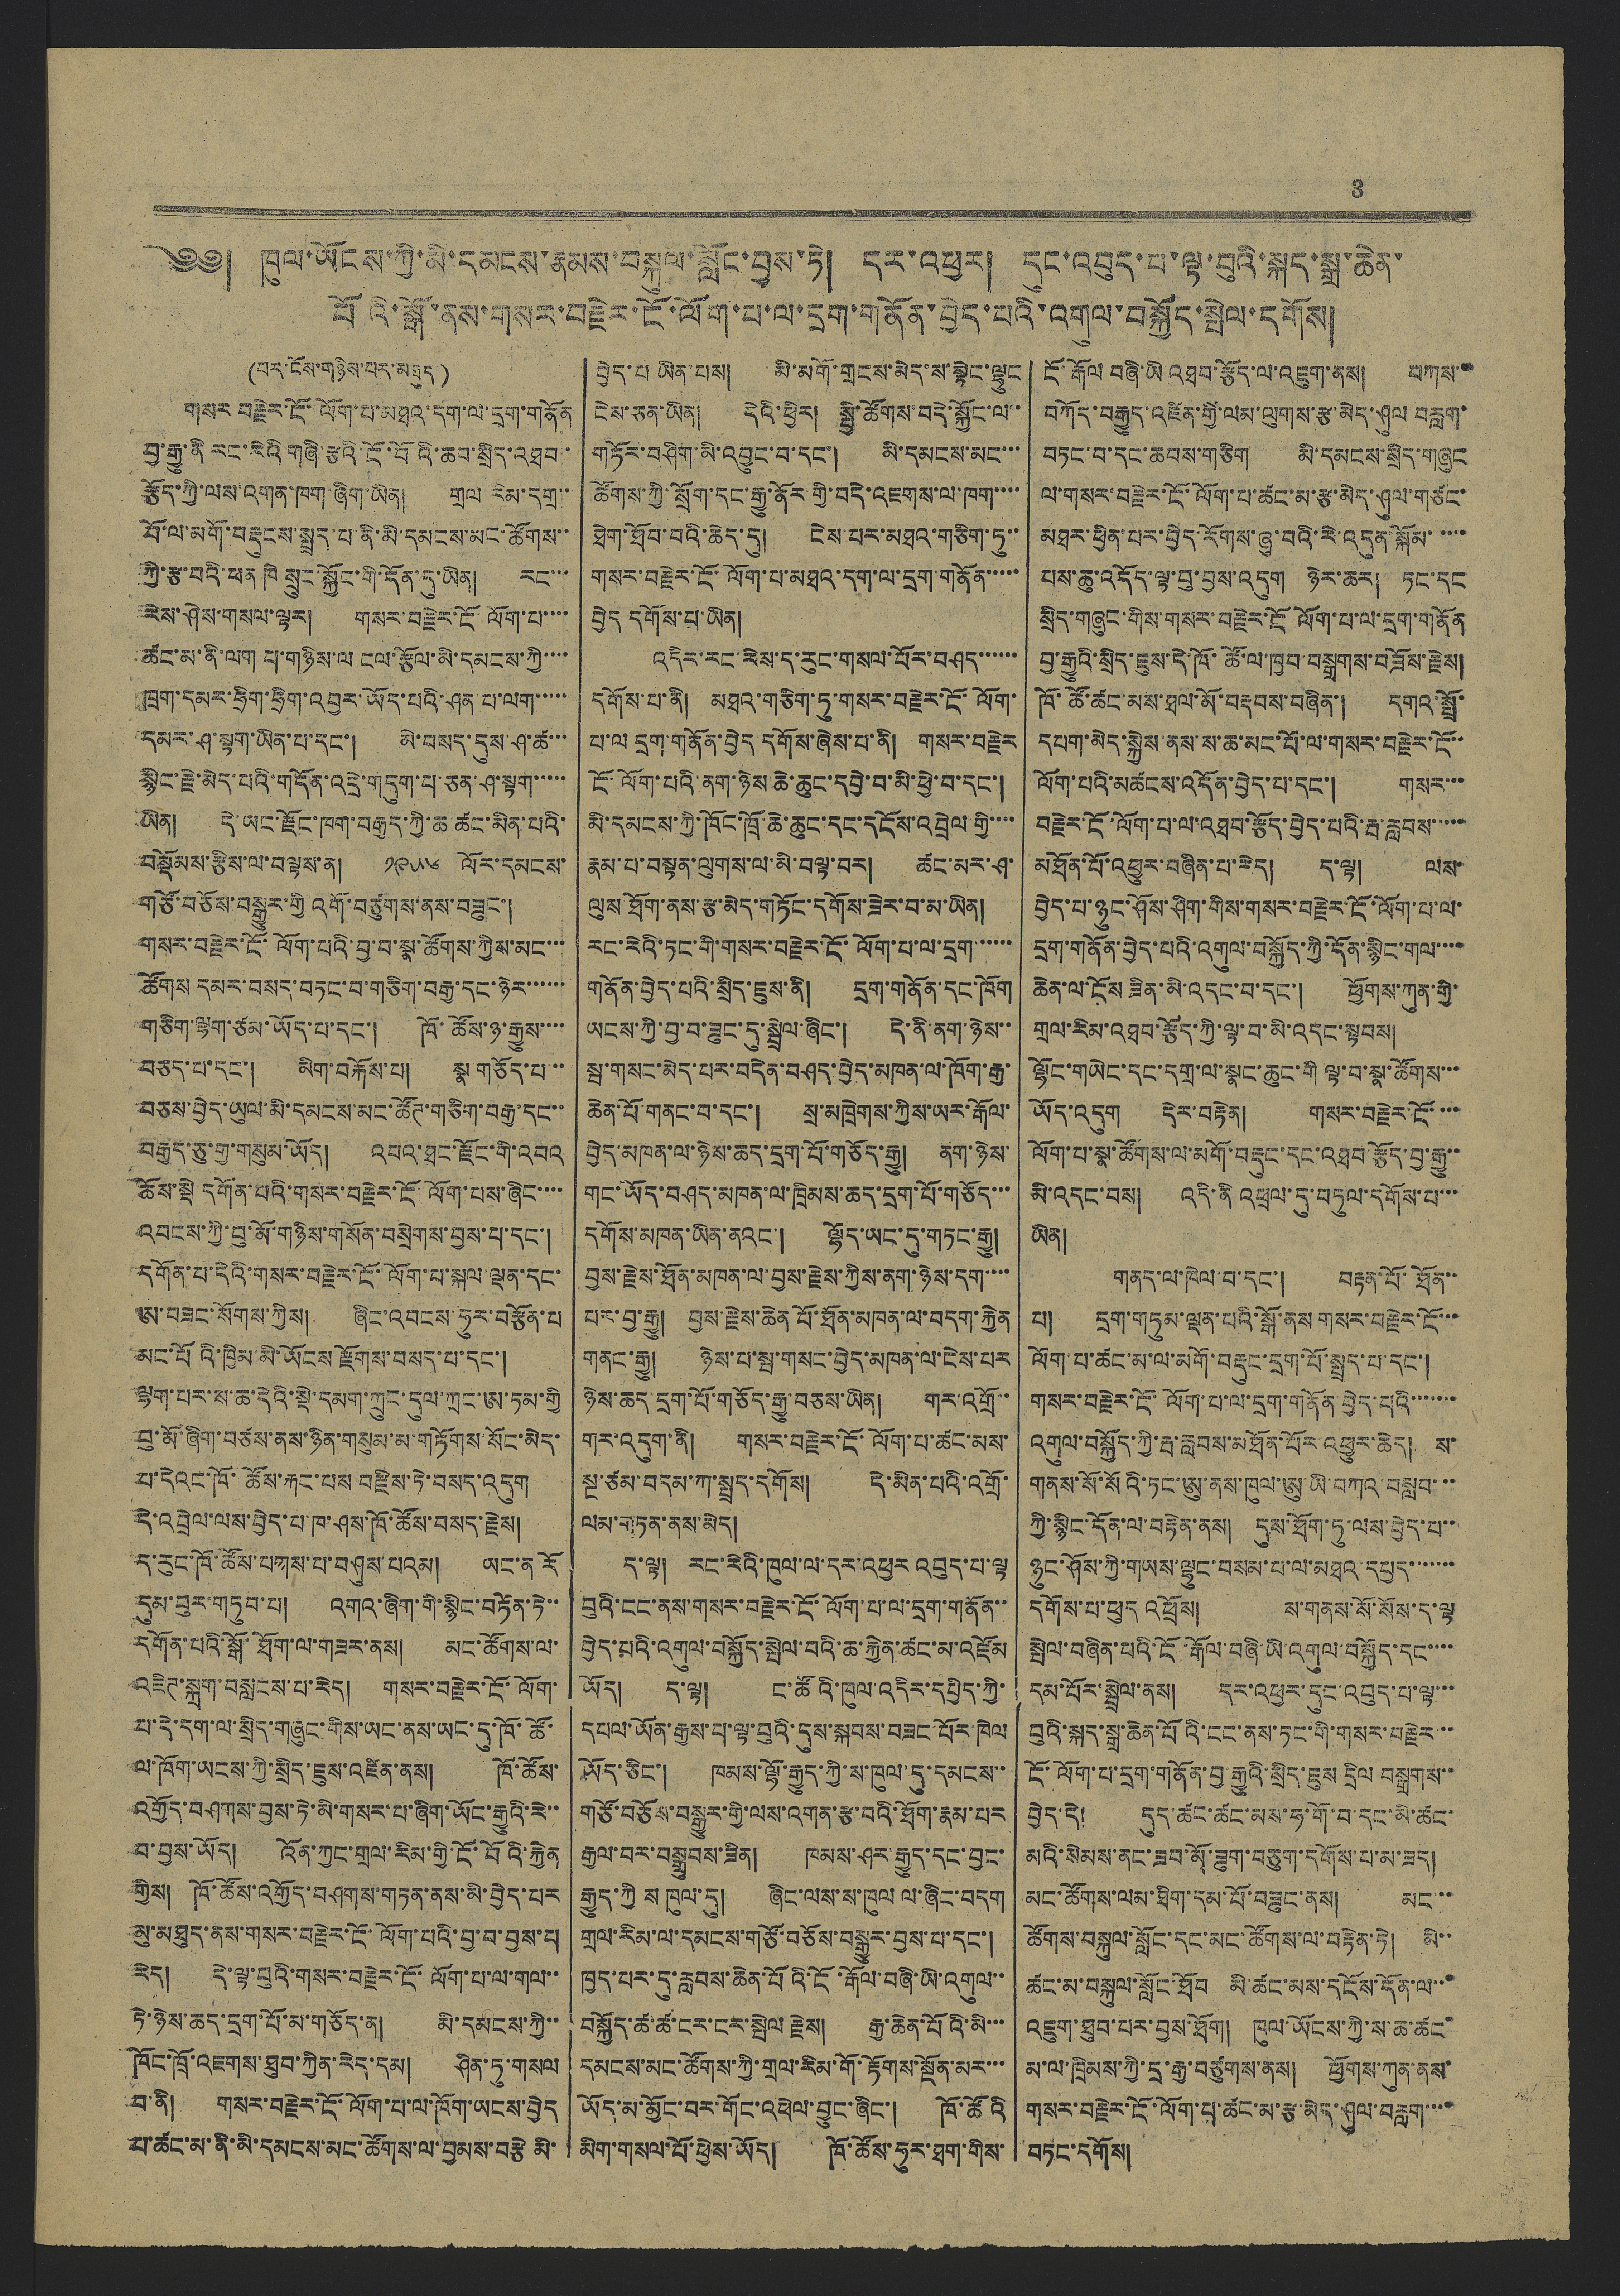3
༄༅། ཁུལ་ཡོངས་ཀྱི་མི་དམངས་རྣམས་བསྐུལ་སློང་བྱས་ཏེ། དར་འཕྱར། དུང་འབུད་པ་ལྟ་བུའི་སྐད་སྒྲ་ཆེན་
པོའི་སྒོ་ནས་གསར་བརྗེར་ངོ་ལོག་པ་ལ་དྲག་གནོན་བྱེད་པའི་འགུལ་བསྐྱོད་སྤེལ་དགོས།
(པར་ངོས་གཉིས་པར་མཐུད།)
གསར བརྗེར་ངོ་ལོག་པ་མཐའ་དག་ལ་དྲག་གནོན
བྱ་རྒྱུ་ནི རང་རེའི གཞི་རྩའི་ངོ་བོའི་ཆབ་སྲིད་འཐབ་
རྩོད་ཀྱི་ལས་འགན་ཁག་ཞིག་ཡིན། གྲལ རིམ་དགྲ་་
བོ་ལ་མགོ་བརྡུངས་སྤྲད་པ་ནི་མི་དམངས་མང་ཚོགས་་
ཀྱི་རྩ་བའི་ཕན ཁེ སྲུང་སྐྱོང་གི་དོན་དུ་ཡིན། རང་་་
རེས་ཤེས་གསལ་ལྟར། གསར་བརྗེར་ངོ་ལོག་པ་་་་
ཚང་མ་ནི་ལག པ་གཉིས་ལ ངལ་རྩོལ་མི་དམངས་ཀྱི་་་་
ཁྲག་དམར་ཧྲིག་ཧྲིག་འབྱར་ཡོད་པའི་ཤན་པ་ལག་་་་་
དམར་ཤ་སྟག་ཡིན་པ་དང་། མི་བསད་དུས་ཤ་ཚ་་་
སྙིང་རྗེ་མེད་པའི་གདོན་འདྲེ་གདུག་པ་ཅན་ཤ་སྟག་་་་་
ཡིན། དེ་ཡང་རྫོང་ཁག་བརྒྱད་ཀྱི་ཆ་ཚང་མིན་པའི་
བསྡོམས་རྩིས་ལ་བལྟས་ན། ༡༩༥༦ ལོར་དམངས་
གཙོ་བཅོས་བསྒྱུར་གྱི འགོ་བཙུགས་ནས་བཟུང་།
གསར་བརྗེར་ངོ་ལོག་པའི་བྱ་བ་སྣ་ཚོགས་ཀྱིས་མང་་་
ཚོགས དམར་བསད་བཏང་བ་གཅིག་བརྒྱ་དང་ཉེར་་་་་་
གཅིག་ལྷག་ཙམ་ཡོད་པ་དང་། ཁོ་ཚོས་ཉ་རྒྱུས་་་་
བཅད་པ་དང་། མིག་བསྐོས་པ། སྣ གཅོད་པ་་་
བཅས་བྱེད་ཡུལ་མི་དམངས་མང་ཚོཊ་གཅིག་བརྒྱ་དང་་
བརྒྱད་ཅུ་གྱ་གསུམ་ཡོད། འབའ་ཐང་རྫོང་གི་འབའ
ཆོས་སྡེ དགོན་པའི་གསར་བརྗེར་ངོ་ལོག་པས་ཞིང་་་་
འབངས་ཀྱི་བུ་མོ་གཉིས་གསོན་བསྲེགས་བྱས་པ་དང་།
དགོན་པ་དེའི་གསར་བརྗེར་ངོ་ལོག་པ་སྐལ་ལྡན་དང་
ཨ་བཟང་སོགས་ཀྱིས། ཞིག་འབངས་ཧུར་བརྩོན་པ
མང་པོའི་ཁྱིམ་མི་ཡོངས་རྫོགས་བསད་པ་དང་།
ལྷག་པར་ས་ཆ་དེའི་སྡེ་དམག་ཀྲུང་དུལ་ཀྲང་ཨ་ཏམ་གྱི
བུ་མོ་ཞིག་བཙས་ནས་ཉིན་གསུམ་མ་གཏོགས་སོང་མེད་
པ་དེའང་ཁོ་ཚོས་རྐང་པས་བརྫིས་ཏེ་བསད་འདུག
དེ་འབྲེལ་ལས་བྱེད་པ་ཁ་ཤས་ཁོ་ཚོས་བསད་རྗེས།
ད་རུང་ཁོ་ཚོས་པགས་པ་བཤུས་པའམ། ཡང་ན་རོ
དུམ་བུར་གཏུབ་པ། འགའ་ཞིག་གི་སྙིང་བཏོན་ཏེ་་
དགོན་པའི་སྒོ་ཐོག་ལ་གཟར་ནས། མང་ཚོགས་ལ་
འཇིཊ་སྐྲག་བསླངས་པ་རེད། གསར་བརྗེར་ངོ་ལོག་
པ་དེ་དག་ལ་སྲིད་གཞུང་གིས་ཡང་ནས་ཡང་དུ་ཁོ་ཚོ་
ལ་ཁོག་ཡངས་ཀྱི་སྲིད་ཇུས་འཛིན་ནས། ཁོ་ཚོས་
འགྱོད་བཤགས་བྱས་ཏེ་མི་གསར་པ་ཞིག་ཡོང་རྒྱུའི་རེ་་
བ་བྱས་ཡོད། འོན་ཀྱང་གྲལ་རིམ་གྱི་ངོ་བོའི་རྐྱེན
གྱིས། ཁོ་ཚོས་འགྱོད་བཤགས་གཏན་ནས་མི་བྱེད་པར
མུ་མཐུད་ནས་གསར་བརྗེར་ངོ་ལོག་པའི་བྱས་བ་བྱས་པ
རེད། དེ་ལྟ་བུའི་གསར་བརྗེར་ངོ་ལོག་པ་ལ་གལ་་
ཏེ་ཉེས་ཆད་དྲག་པོ་མ་གཅོད་ན། མི་དམངས་ཀྱི་་
ཁོང་ཁྲོ་འཇགས་ཐུབ་ཀྱིན་རེད་དམ། ཤིན་ཏུ་གསལ
བ་ནི། གསར་བརྗེར་ངོ་ལོག་པ་ལ་ཁོག་ཡངས་བྱེད
པ་ཚང་མ་ནི་མི་དམངས་མང་ཚོགས་ལ་བྱམས་བརྩེ་མི་
བྱེད་པ་ཡིན་པས། མི་མགོ་གྲངས་མེད་ས་སྟེང་ལྷུང
ངེས་ཅན་ཡིན། དེའི་ཕྱིར། སྤྱི་ཚོགས་བདེ་སྐྱོང་ལ་་
གཏོར་བཤིག་མི་འབྱུང་བ་དང་། མི་དམངས་མང་་་
ཚོགས་ཀྱི་སྲོག་དང་རྒྱུ་ནོར་གྱི་བདེ་འཇགས་ལ་ཁག་་་་
ཐེག་ཐོབ་བའི་ཆེད་དུ། ངེས་པར་མཐའ་གཅིག་ཏུ་་
གསར་བརྗེར་ངོ་ལོག་པ་མཐའ་དག་ལ་དྲག་གནོན་་་་་
བྱེད་དགོས་པ་ཡིན།
འདིར་རང་རེས་ད་རུང་གསལ་པོར་བཤད་་་་་་
དགོས་པ་ནི། མཐའ་གཅིག་ཏུ་གསར་བརྗེར་ངོ་ལོག་
པ་ལ དྲག་གནོན་བྱེད དགོས་ཞེས་པ་ནི། གསར་བརྗེར
ངོ་ལོག་པའི་ནག་ཉེས་ཆེ་ཆུང་དབྱེ་བ་མི་ཕྱེ་བ་དང་།
མི་དམངས་ཀྱི་ཁོང་ཁྲོ་ཆེ་ཆུང་དང་དངོས་འབྲེལ་གྱི་་་་
རྣམ་པ་བསྟན་ལུགས་ལ་མི་བལྟ་བར། ཚང་མར་ཤ་
ལུས ཐོག་ནས་རྩ་མེད་གཏོང་དགོས་ཟེར་བ་མ་ཡིན།
རང་རེའི་ཏང་གི་གསར་བརྗེར་ངོ་ལོག་པ་ལ་དྲག་་་་་་
གནོན་བྱེད་པའི་སྲིད་ཇུས་ནི། དྲག་གནོན་དང་ཁོག
ཡངས་ཀྱི་བྱ་བ་ཟུང་དུ་སྦྲེལ་ཞིང་། དེ་ནི་ནག་ཉེས་་
སྦ་གསང་མེད་པར་བདེན་བཤད་བྱེད་མཁན་ལ་ཁོག་རྒྱ་
ཆེན་པོ་གནང་བ་དང་། སྲ་མཁྲེགས་ཀྱིས་ཡར་རྒོལ་
བྱེད་མཁན་ལ་ཉེས་ཆད་དྲག་པོ་གཅོད་རྒྱུ། ནག་ཉེས་
གང་ཡོད་བཤད་མཁན་ལ་ཁྲིམས་ཆད་དྲག་པོ་གཅོད་་་
དགོས་མཁན་ཡིན་ནའང་། ལྷོད་ཡང་དུ་གཏང་རྒྱུ།
བྱས་རྗེས་ཐོན་མཁན་ལ་བྱས་རྗེས་ཀྱིས་ནག་ཉེས་དག་་་་
པར་བྱ་རྒྱུ། བྱས་རྗེས་ཆེན་པོ་ཐོན་མཁན་ལ་བདག་རྐྱེན
གནང་རྒྱུ། ཉེས་པ་སྦ་གསང་བྱེད་མཁན་ལ་ངེས་པར
ཉེས་ཆད་དྲག་པོ་གཅོད་རྒྱུ་བཅས་ཡིན། གར་འགྲོ་་
གར་འདུག་ནི། གསར་བརྗེར་ངོ་ལོག་པ་ཚང་མས་
སྔ་ཙམ་བདམ་ཀ་སྤྲད་དགོས། དེ་མིན་པའི་འགྲོ་
ལམ་གཏན་ནས་མེད།
ད་ལྟ། རང་རེའི་ཁུལ་ལ་དར་འཕྱར་འབུད་པ་ལྟ
བུའི་ངང་ནས་གསར་བརྗེར་ངོ་ལོག་པ་ལ་དྲག་གནོན་་
བྱེད་པའི་འགུལ་བསྐྱོད་སྤེལ་བའི་ཆ་རྐྱེན་ཚང་མ་འཛོམ
ཡོད། ད་ལྟ། ང་ཚོའི་ཁུལ་འདིར་དཔྱིད་ཀྱི་
དཔལ་ཡོན་རྒྱས་པ་ལྟ་བུའི་དུས་སྐབས་བཟང་པོར་ཁེལ
ཡོད་ཅིང་། ཁམས་ལྷོ་རྒྱུད་ཀྱི་ས་ཁུལ་དུ་དམངས་་
གཙོ་བཅོས་བསྒྱུར་གྱི་ལས་འགན་རྩ་བའི་ཐོག་རྣམ་པར
རྒྱལ་བར་བསྒྲུབས་ཟིན། ཁམས་ཤར་རྒྱུད་དང་བྱང་
རྒྱུད་ཀྱི ས ཁུལ་དུ། ཞིང་ལས་ས་ཁུལ་ལ་ཞིང་བདག
གྲལ་རིམ་ལ་དམངས་གཙོ་བཅོས་བསྒྱུར་བྱས་པ་དང་།
ཁྱད་པར་དུ་རླབས་ཆེན་པོའི་ངོ་རྒོལ་བཞི་ཡི་འགུལ་་
བསྐྱོད་ཚ་ཚ་ངར་ངར་སྤེལ རྗེས། རྒྱ་ཆེན་པོའི་མི་་་
དམངས་མང་ཚོགས་ཀྱི་གྲལ་རིམ་གོ་རྟོགས་སྔོན་མར་་་
ཡོད་མ་མྱོང་བར་གོང་འཕེལ་བྱུང་ཞིང་། ཁོ་ཚོའི
མིག་གསལ་པོ་ཕྱེས་ཡོད། ཁོ་ཚོས་ཧུར་ཐག་གིས་
ངོ་རྒོལ བཞི་ཡི འཐབ་རྩོད་ལ་འཇུག་ནས། བཀས་་
བཀོད་བརྒྱུད་འཛིན་གྱི་ལམ་ལུགས་རྩ་མེད་ཤུལ བརླག་
བཏང་བ་དང་ཆབས་གཅིག མི་དམངས་སྲིད་གཞུང
ལ་གསར་བརྗེར་ངོ་ལོག་པ་ཚང་མ་རྩ་མེད་ཤུལ་གཙང་
མཐར་ཕྱིན་པར་བྱེད་རོགས་ཞུ་བའི་རེ་འདུན་སྐོམ་་་་་
པས་ཆུ་འདོད་ལྟ་བུ་བྱས་འདུག ཉེར་ཆར། ཏང་དང
སྲིད་གཞུང་གིས་གསར་བརྗེར་ངོ ལོག་པ་ལ་དྲག་གནོན
བྱ་རྒྱུའི་སྲིད་ཇུས་དེ་ཁོ་ཚོ་ལ་ཁྱབ་བསྒྲགས་བཟོས་རྗེས།
ཁོ་ཚོ་ཚང་མས་ཐལ་མོ་བརྡབས་བཞིན་། དགའ་སྤྲོ་
དཔག་མེད་སྐྱེས་ནས་ས་ཆ་མང་པོ་ལ་གསར་བརྗེར་ངོ་་
ལོག་པའི་མཚངས་འདོན་བྱེད་པ་དང་། གསར་་་
བརྗེར་ངོ་ལོག་པ་ལ་འཐབ་རྩོད་བྱེད་པའི་རྦ་རླབས་་་་་
མཐོན་པོ་འཕྱུར་བཞིན་པ་རེད། ད་ལྟ། ལས་
བྱེད་པ་ཉུང་ཤོས་ཤིག་གིས་གསར་བརྗེར་ངོ་ལོག་པ་ལ་
དྲག་གནོན་བྱེད་པའི་འགུལ་བསྐྱོད་ཀྱི་དོན་སྙིང་གལ་་་་
ཆེན་ལ་ངོས ཟིན་མི་འདང་བ་དང་། ཕྱོགས་ཀུན་གྱི་
གྲལ་རིམ་འཐབ་རྩོད་ཀྱི་ལྟ་བ་མི་འདང་སྟབས།
ལྷོང་གཡེང་དང་དགྲ་ལ་སྣང་ཆུང་གི་ལྟ་བ་སྣ་ཚོགས་་་
ཡོད་འདུག དེར་བརྟེན། གསར་བརྗེར་ངོ་་་་
ལོག་པ་སྣ་ཚོགས་ལ་མགོ་བརྡུང་དང་འཐབ་རྩོད་བྱ་རྒྱུ་་
མི་འདང་བྱས། འདི་ནི འཕྲལ་དུ་བཏུལ་དགོས་པ་་་
ཡིན།
གནད་ལ་ཁེལ་བ་དང་། བརྟན་པོ་ཐོན་་
པ། དྲག་གཏུམ་ལྡན་པའི་སྒོ་ནས་གསར་བརྗེར་ངོ་་་
ལོག་པ་ཚང་མ་ལ་མགོ་བརྡུང་དྲག་པོ་སྤྲད་པ་དང་།
གསར་བརྗེར་ངོ་ལོག་པ་ལ་དྲག་གནོན་བྱེད་པའི་་་་་་་
འགུལ་བསྐྱོད་ཀྱི་རྦ་རླབས་མཐོན་པོར་འཕྱུར་ཆེད། ས་
གནས་སོ་སོའི་ཏང་ཨུ་ནས་ཁུལ་ཨུ་ཡི་བཀའ་བསླབ་་་
ཀྱི་སྙིང་དོན་ལ་བརྟེན་ནས། དུས་ཐོག་ཏུ་ལས་བྱེད་པ་་
ཉུང་ཤོས་ཀྱི་གཡས་ལྷུང་བསམ་པ་ལ་མཐའ་དཔྱད་་་་་་་
དགོས་པ་ཕུད འཕྲོས། ས་གནས་སོ་སོས་ད་ལྟ
སྤེལ་བཞིན་པའི་ངོ་རྒོལ་བཞི་ཡི་འགུལ་བསྐྱོད་དང་་་་
དམ་པོར་སྦྲེལ་ནས། དར་འཕྱར་དུང་འབུད་པ་ལྟ་་་
བུའི་སྐད་སྒྲ་ཆེན་པོའི་ངང་ནས་ཏང་གི་གསར་བརྗེར་་
ངོ་ལོག་པ་དྲག་གནོན་བྱ་རྒྱུའི་སྲིད་ཇུས་དྲིལ བསྒྲགས་་
བྱེད་དེ། དུད་ཚང་ཚང་མས་ཧ་གོ་བ་དནག་མི་ཚང་
མའི་སེམས་ནང་ཟབ་མོ་ཟུག་བཅུག་དོགས་པ་མ་ཟད།
མང་ཚོགས་ལམ་ཐིག་དམ་པོ་བཟུང་ནས། མང་་་
ཚོགས་བསྐུལ་སློང་དང་མང་ཚོགས་ལ་བརྟེན་ཏེ། མི་་
ཚང་མ་བསྐུལ་སློང་ཐོབ མི་ཚང་མས་དངོས་དོན་ལ་་་
འཇུག་ཐུབ་པར་བྱས་ཐོག། ཁུལ་ཡོགས་ཀྱི་ས་ཆ་ཚང་
མ་ལ་ཁྲིམས་ཀྱི་དྲ་རྒྱ་བཙུགས་ནས། ཕྱོགས་ཀུན་ནས་
གསར་བརྗེར་ངོ་ལོག་པ་ཚང་མ་རྩ་མེད་ཤུལ་བརླག་་་་
བཏང་དགོས།
